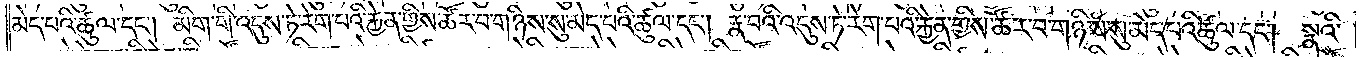མེད་པའི་ཚུལ་དང༌། མིག་གི་འདུས་ཏེ་རེག་པའི་རྐྱེན་གྱིས་ཚོར་བ་གཉིས་སུ་མེད་པའི་ཚུལ་དང༌། རྣ་བའི་འདུས་ཏེ་རེག་པའི་རྐྱེན་གྱིས་ཚོར་བ་གཉིས་སུ་མེད་པའི་ཚུལ་དང༌། སྣའི་
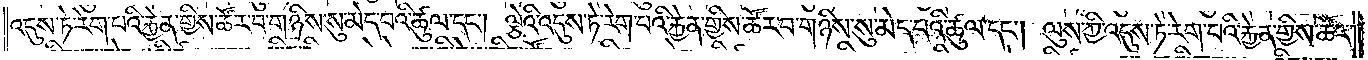འདུས་ཏེ་རེག་པའི་རྐྱེན་གྱིས་ཚོར་བ་གཉིས་སུ་མེད་པའི་ཚུལ་དང༌། ལྕེའི་འདུས་ཏེ་རེག་པའི་རྐྱེན་གྱིས་ཚོར་བ་གཉིས་སུ་མེད་པའི་ཚུལ་དང༌། ལུས་ཀྱི་འདུས་ཏེ་རེག་པའི་རྐྱེན་གྱིས་ཚོར་
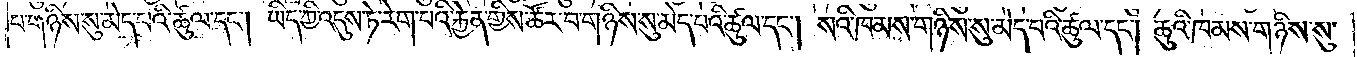བ་གཉིས་སུ་མེད་པའི་ཚུལ་དང༌། ཡིད་ཀྱི་འདུས་ཏེ་རེག་པའི་རྐྱེན་གྱིས་ཚོར་བ་གཉིས་སུ་མེད་པའི་ཚུལ་དང༌། སའི་ཁམས་གཉིས་སུ་མེད་པའི་ཚུལ་དང༌། ཆུའི་ཁམས་གཉིས་སུ་
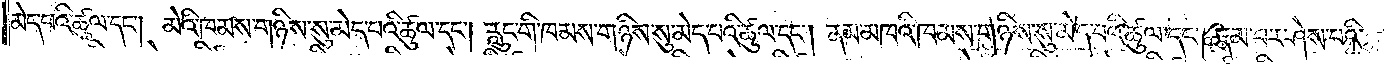མེད་པའི་ཚུལ་དང༌། མེའི་ཁམས་གཉིས་སུ་མེད་པའི་ཚུལ་དང༌། རླུང་གི་ཁམས་གཉིས་སུ་མེད་པའི་ཚུལ་དང༌། ནམ་མཁའི་ཁམས་གཉིས་སུ་མེད་པའི་ཚུལ་དང༌། རྣམ་པར་ཤེས་པའི་
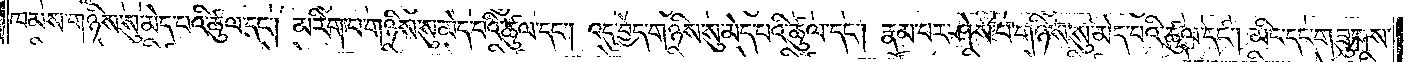ཁམས་གཉིས་སུ་མེད་པའི་ཚུལ་དང༌། མ་རིག་པ་གཉིས་སུ་མེད་པའི་ཚུལ་དང༌། འདུ་བྱེད་གཉིས་སུ་མེད་པའི་ཚུལ་དང༌། རྣམ་པར་ཤེས་པ་གཉིས་སུ་མེད་པའི་ཚུལ་དང༌། མིང་དང་གཟུགས་
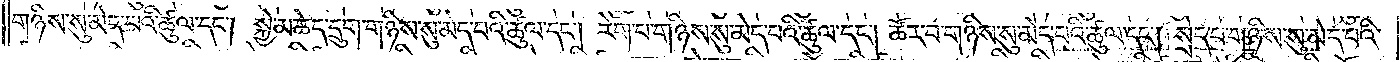གཉིས་སུ་མེད་པའི་ཚུལ་དང༌། སྐྱེ་མཆེད་དྲུག་གཉིས་སུ་མེད་པའི་ཚུལ་དང༌། རེག་པ་གཉིས་སུ་མེད་པའི་ཚུལ་དང༌། ཚོར་བ་གཉིས་སུ་མེད་པའི་ཚུལ་དང༌། སྲེད་པ་གཉིས་སུ་མེད་པའི་
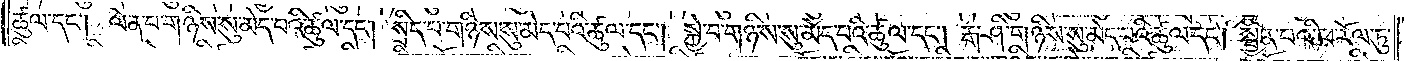ཚུལ་དང༌། ལེན་པ་གཉིས་སུ་མེད་པའི་ཚུལ་དང༌། སྲིད་པ་གཉིས་སུ་མེད་པའི་ཚུལ་དང༌། སྐྱེ་བ་གཉིས་སུ་མེད་པའི་ཚུལ་དང༌། རྒ་ཤི་གཉིས་སུ་མེད་པའི་ཚུལ་དང༌། སྦྱིན་པའི་ཕ་རོལ་ཏུ་
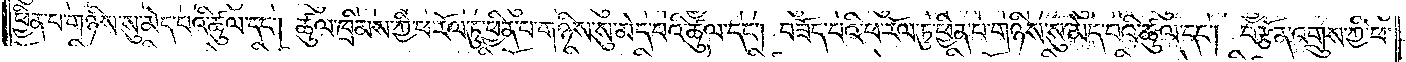ཕྱིན་པ་གཉིས་སུ་མེད་པའི་ཚུལ་དང༌། ཚུལ་ཁྲིམས་ཀྱི་ཕ་རོལ་ཏུ་ཕྱིན་པ་གཉིས་སུ་མེད་པའི་ཚུལ་དང༌། བཟོད་པའི་ཕ་རོལ་ཏུ་ཕྱིན་པ་གཉིས་སུ་མེད་པའི་ཚུལ་དང༌། བརྩོན་འགྲུས་ཀྱི་ཕ་
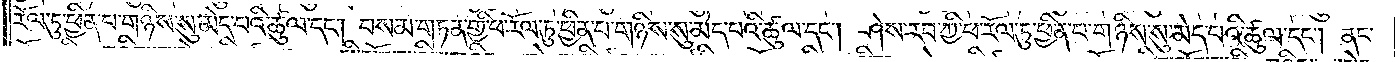རོལ་ཏུ་ཕྱིན་པ་གཉིས་སུ་མེད་པའི་ཚུལ་དང༌། བསམ་གཏན་གྱི་ཕ་རོལ་ཏུ་ཕྱིན་པ་གཉིས་སུ་མེད་པའི་ཚུལ་དང༌། ཤེས་རབ་ཀྱི་ཕ་རོལ་ཏུ་ཕྱིན་པ་གཉིས་སུ་མེད་པའི་ཚུལ་དང༌། ནང་
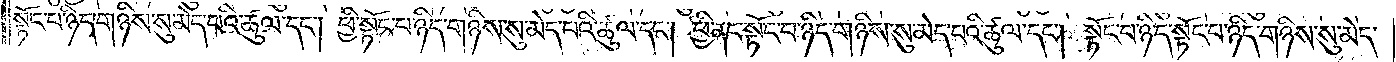སྟོང་པ་ཉིད་གཉིས་སུ་མེད་པའི་ཚུལ་དང༌། ཕྱི་སྟོང་པ་ཉིད་གཉིས་སུ་མེད་པའི་ཚུལ་དང༌། ཕྱི་ནང་སྟོང་པ་ཉིད་གཉིས་སུ་མེད་པའི་ཚུལ་དང༌། སྟོང་པ་ཉིད་སྟོང་པ་ཉིད་གཉིས་སུ་མེད་
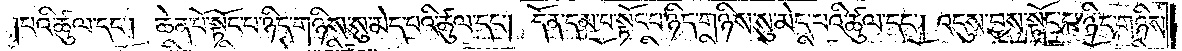པའི་ཚུལ་དང༌། ཆེན་པོ་སྟོང་པ་ཉིད་གཉིས་སུ་མེད་པའི་ཚུལ་དང༌། དོན་དམ་པ་སྟོང་པ་ཉིད་གཉིས་སུ་མེད་པའི་ཚུལ་དང༌། འདུས་བྱས་སྟོང་པ་ཉིད་གཉིས་
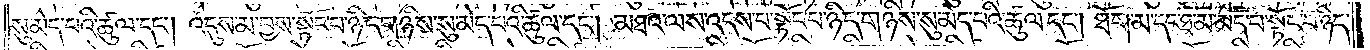སུ་མེད་པའི་ཚུལ་དང༌། འདུས་མ་བྱས་སྟོང་པ་ཉིད་གཉིས་སུ་མེད་པའི་ཚུལ་དང༌། མཐའ་ལས་འདས་པ་སྟོང་པ་ཉིད་གཉིས་སུ་མེད་པའི་ཚུལ་དང༌། ཐོག་མ་དང་ཐ་མ་མེད་པ་སྟོང་པ་ཉིད་
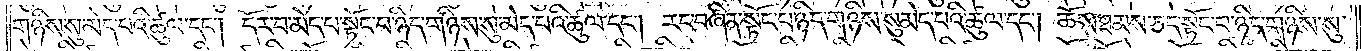གཉིས་སུ་མེད་པའི་ཚུལ་དང༌། དོར་བ་མེད་པ་སྟོང་པ་ཉིད་གཉིས་སུ་མེད་པའི་ཚུལ་དང༌། རང་བཞིན་སྟོང་པ་ཉིད་གཉིས་སུ་མེད་པའི་ཚུལ་དང༌། ཆོས་ཐམས་ཅད་སྟོང་པ་ཉིད་གཉིས་སུ་
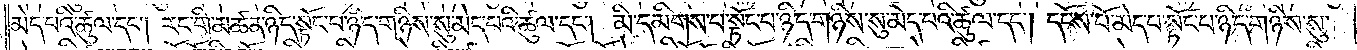མེད་པའི་ཚུལ་དང༌། རང་གི་མཚན་ཉིད་སྟོང་པ་ཉིད་གཉིས་སུ་མེད་པའི་ཚུལ་དང༌། མི་དམིགས་པ་སྟོང་པ་ཉིད་གཉིས་སུ་མེད་པའི་ཚུལ་དང༌། དངོས་པོ་མེད་པ་སྟོང་པ་ཉིད་གཉིས་སུ་
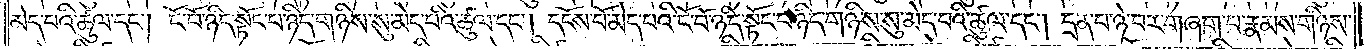མེད་པའི་ཚུལ་དང༌། ངོ་བོ་ཉིད་སྟོང་པ་ཉིད་གཉིས་སུ་མེད་པའི་ཚུལ་དང༌། དངོས་པོ་མེད་པའི་ངོ་བོ་ཉིད་སྟོང་པ་ཉིད་གཉིས་སུ་མེད་པའི་ཚུལ་དང༌། དྲན་པ་ཉེ་བར་གཞག་པ་རྣམས་གཉིས་
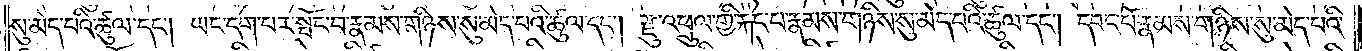སུ་མེད་པའི་ཚུལ་དང༌། ཡང་དག་པར་སྤོང་བ་རྣམས་གཉིས་སུ་མེད་པའི་ཚུལ་དང༌། རྫུ་འཕྲུལ་གྱི་རྐང་པ་རྣམས་གཉིས་སུ་མེད་པའི་ཚུལ་དང༌། དབང་པོ་རྣམས་གཉིས་སུ་མེད་པའི་
